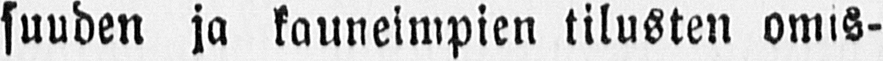suuden ja kauneimpien tilusten omis-
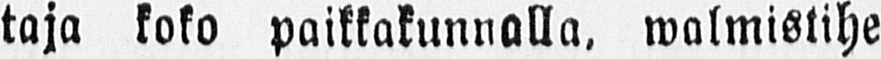taja koko paikkakunnalla, walmistihe
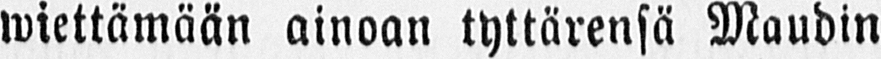wiettämään ainoan tyttärensä Maudin
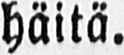häitä.
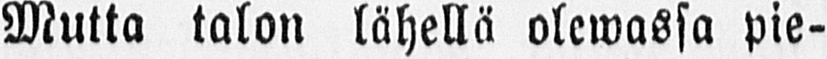Mutta talon lähellä olemassa pie-
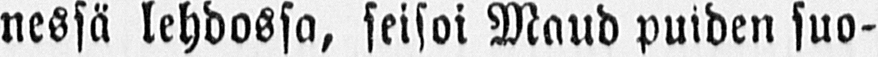nessä lehdossa, seisoi Maud puiden suo-
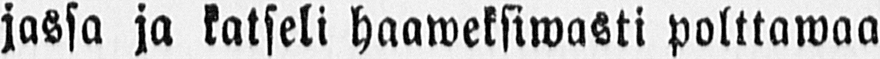jassa ja katseli haaweksiwasti polttawaa
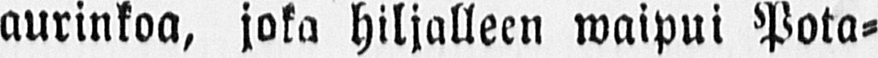aurinkoa, joka hiljalleen waipui Pota-
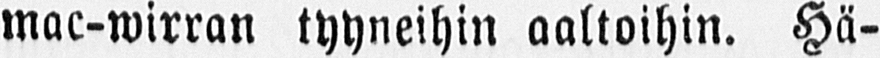mac-wirran tyyneihin aaltoihin. Hä-
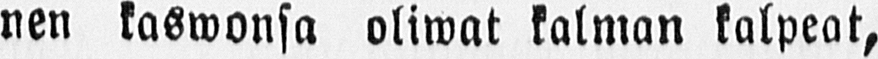nen kaswonsa oliwat kalman kalpeat,
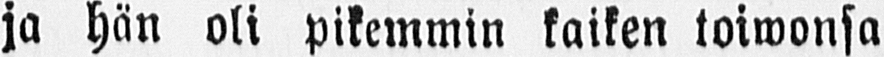ja hän oli pikemmin kaiken toiwonsa
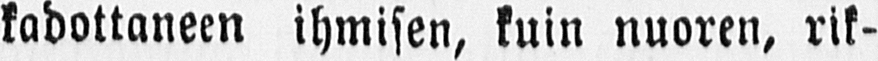kadottaneen ihmisen, kuin nuoren, rik-
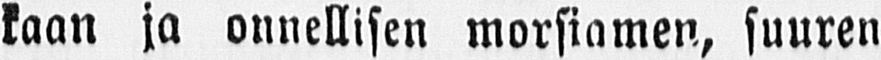kaan ja onnellisen morsiamen, suuren
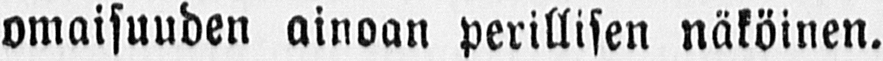omaisuuden ainoan perillisen näköinen.
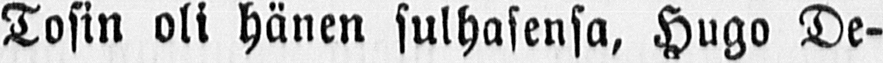Tosin oli hänen sulhasensa, Hugo De-
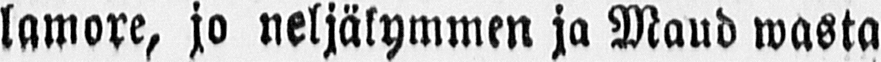lamore, jo neljäkymmen ja Maud wasta
